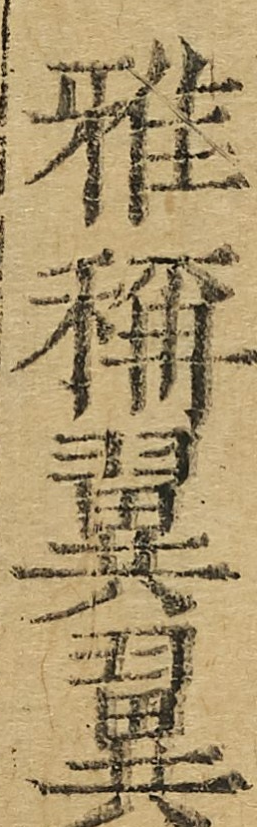雅稱翼翼
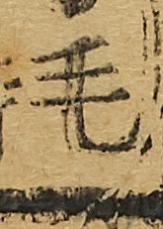毛
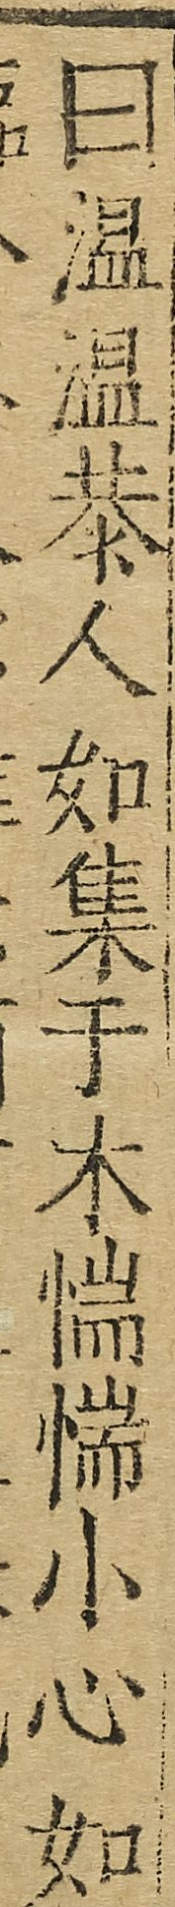曰溫溫恭人如集于木惴惴小心如
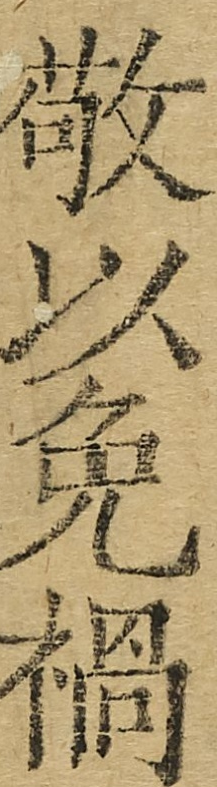敬以免禍
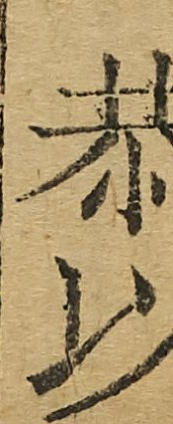恭以
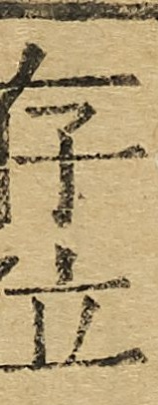存位
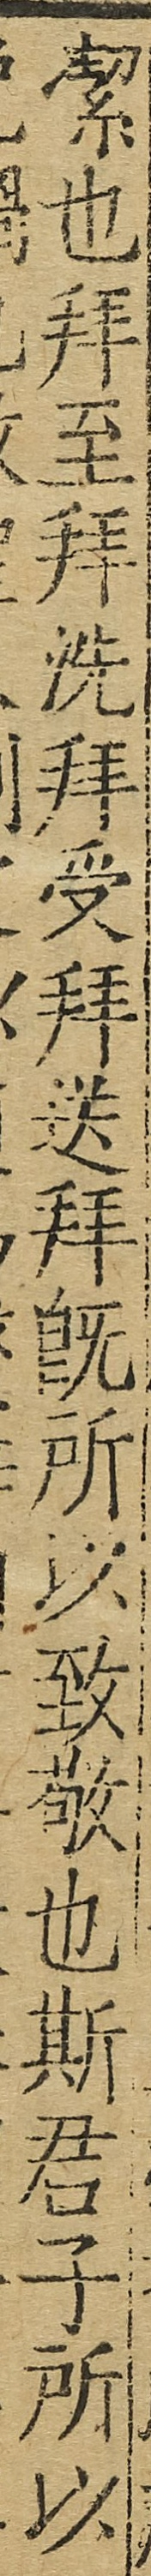絜也拜至拜洗拜受拜送拜旣所以致敬也斯君子所以
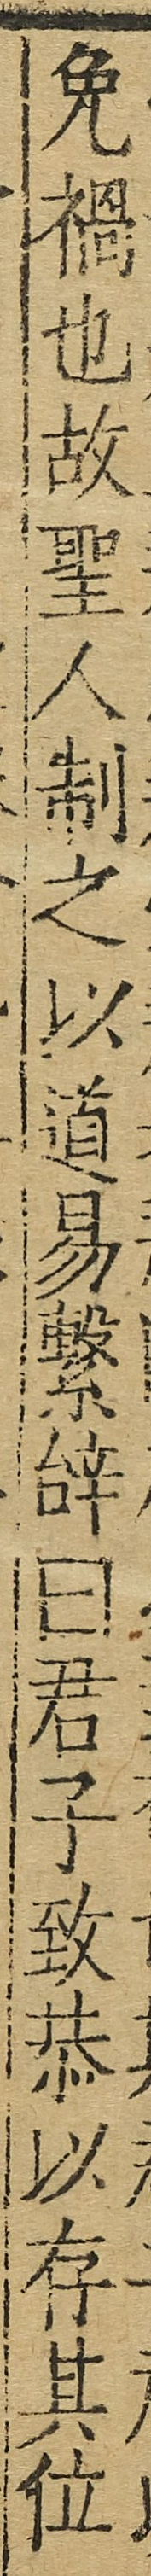免禍也故聖人制之以道易繫辭曰君子致恭以存其位
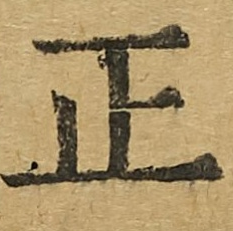正
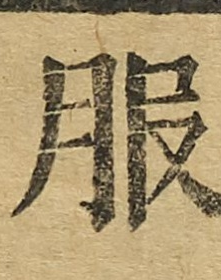服
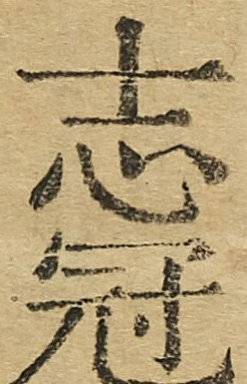去冠
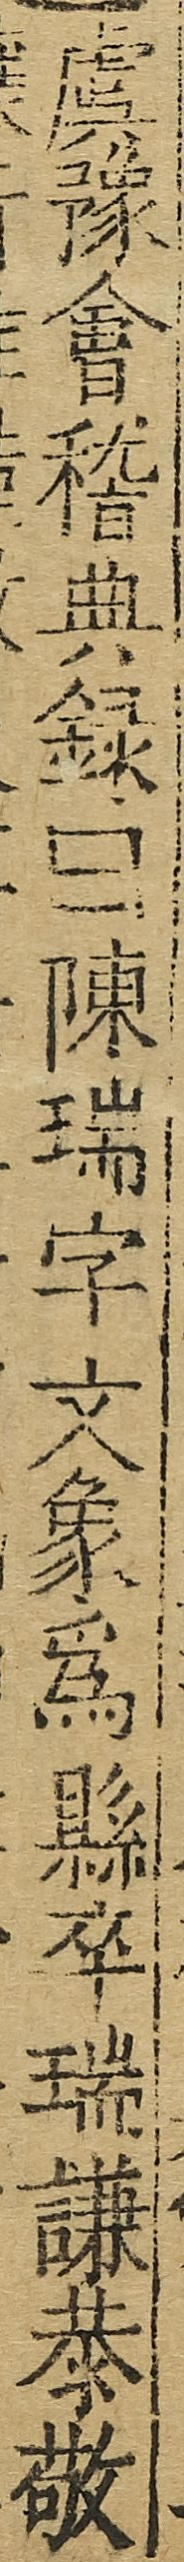虞豫會稽典錄曰陳瑞字文象為縣卒瑞謙恭敬
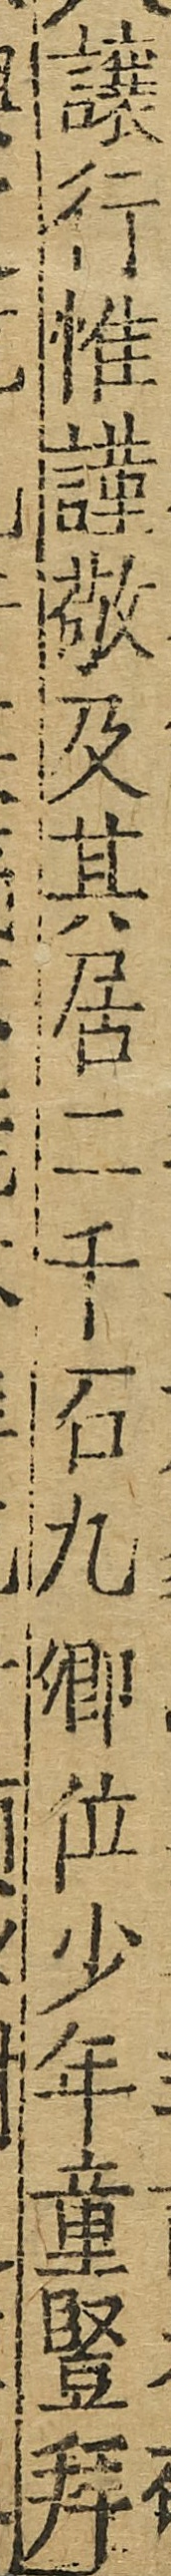讓行惟謹敬及其居二千石九卿位少年童豎拜
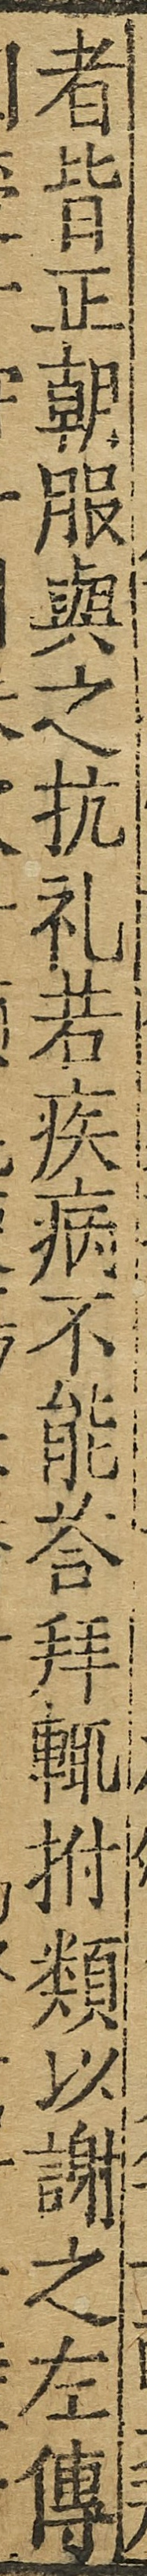者皆正朝服與之抗禮若疾病不能答拜輒拊類以謝之左傳
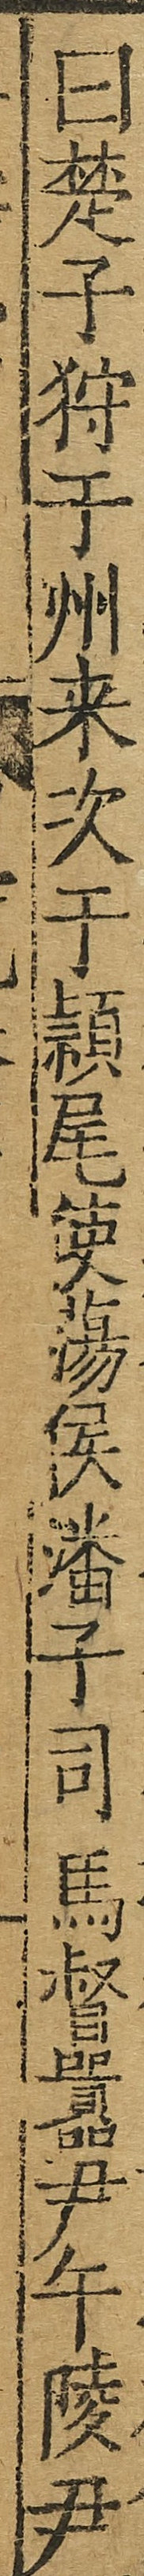曰楚子狩于州來次于潁尾使蕩侯潘子司馬督囂尹午陵尹
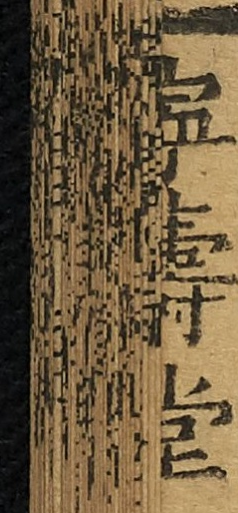寧壽堂
